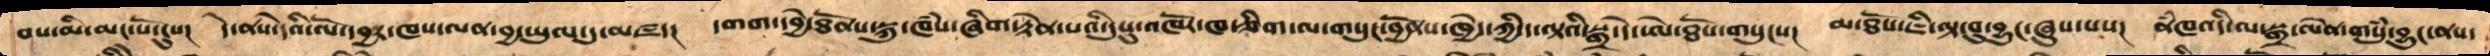བས་མི་མང་པོས་ངུས།  དེ་ནས་དེའི་ལོ་དབྱར་ཁས་ལན་བྱ་ཡུལ་དུ་མཛད།  དགག་དབྱེ་ཐོནས་སྐུ་ཁཾས་ཞིག་རྟེན་པའི་དུསུ་འཁོར་ཁ་ཅིག་ལ་གསུང་བྱོནས་ཁྱེད་ཀྱི་ད་ལྟའི་སྒྲ་དེ་ཨེ་ཐོས་གསུངས།  མ་ཐོས་ཇི་ལྟ་བུ་བྱུང་ཞུས་པས།  ནཾཁའ་འདི་ལ་སྒྲ་ལེན་གསུཾ་བྱུང་ནས་
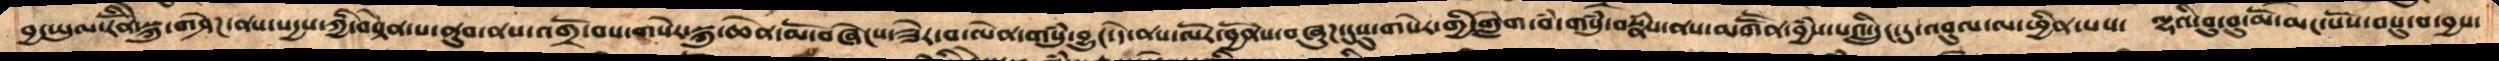བྱ་ཡུལ་རིོནེ་སྐུ་གཤེཌ་ནས་སདྱས་ཀྱི་བསྟེན་པ་ནུབ་ནས་འགྲོ་བས་གསེར་སྐུ་ཆེན་མོ་བཞེངས་ཟེར་བ་ལེན་གསུཾ་བྱུང་དེ་ནས་ལོར་བྱོནས་བཞུཌ་དུསུ་གསེར་གྱི་གླེག་བཾ་གསུཾ་བསྣཾས་ནས་མགོཽ་བྱཾས་པའི་དྲུང་དུ་འབུལ་ལ་ཕྱིན་པས།  ལྷའི་བུ་བུ་མོ་མང་པོས་བསུ་བ་བྱས་
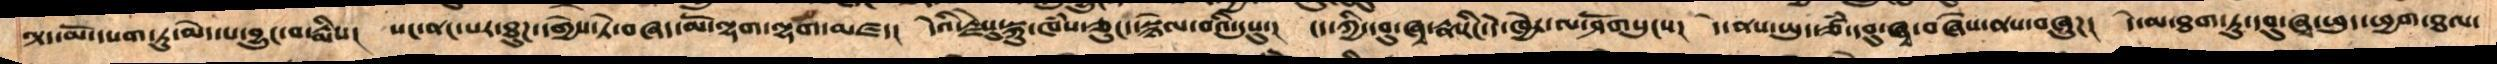ལྟད་མོ་དཔག་ཏུ་མེད་པ་བྱུང་བ་རྨིས།   སང་ནང་པར་ཐུཌ་དགྱེས་ཏེ་བཞད་མོ་ལྷག་ལྷག་མཛད།    དེའི་རྗེསུ་སྐུ་ཁྃས་ཅུང་སྙེལ་བའི་དུསུ།  ངད་ཀྱི་དབུ་ཞྭ་སྣ་རིང་དེ་ཁྱེར་ལ་ཤོགསུངས། དེ་ནས་ཡུད་ཙྃ་དབུ་ཞྭ་བཞེས་ནསབཞུཌ། དེ་མ་ཐག་ཏུ་དབུ་ཞྭ་ཕུད་ཕྱག་ཐལ་
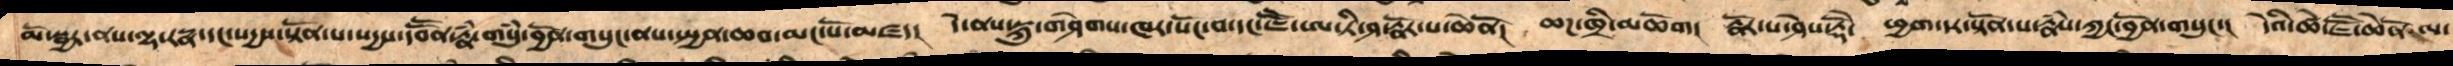མོ་སྦྱར་ནས་ལྷ་རསྣ་དང་སདྱས་སྟོན་པ་སདྱད་དབོཽན་རྣྃ་གསུྃ་བྱོན་གསུང་ནས་སྤྱན་ཆབ་མང་པོ་མཛད། དེ་ནས་སྐུ་གཤེགས་ཁར་སོང་བ་དང་ཇཽ་ཨ་ཏི་ཤ་རྣོར་པ་ཆེནོ། ཆཌ་ཁྲི་མཆོག།  རྣོར་པ་ཤེས་རྡོེ་  ཕྱག་དར་སྟོན་པ་རྣྃས་ཀྱང་བྱོན་གསུང་། དེའི་ཚེ་ཇཽ་ཆེནོ་ལ་
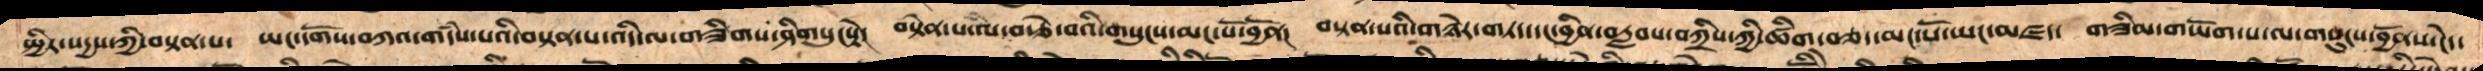སྤྱིར་སདྱས་ཀྱི་བསྟན་པ་  ཡང་དགོས་བཀའ་གདྃས་པའི་བསྟན་པ་འདི་ལ་གཟིགས་ཤིག་གསུངསྟེ།   བསྟེན་པ་ལ་ཐུགས་བརྩེ་བའི་གསུངས་མང་པོ་བྱོན། བསྟན་པའི་གཉེར་གཏད་དང་བྱིན་བརླབས་བཀྲིས་ཀྱི་ཚིག་བཅད་མང་པོ་ཡང་མཛད།  གཟིམས་གཡོག་པ་ལ་གསུངས་བྱོནས་ངེད་
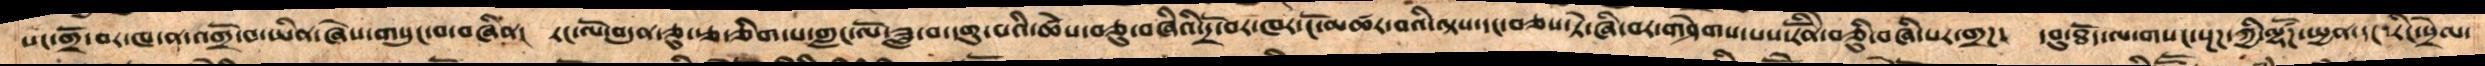སང་གྲོ་བར་ཁ་ན་འགྲོ་བ་ཡིན་ཞེས་གསུང་བ་བཞིན།  རང་ལོ་བདུན་ཅུ་རྩ་ཅིག་པ་གླང་ལོ་ཟླ་བ་དགུ་པའི་ཚེས་བཅུ་བཞིའི་དྲོ་བར་ཁར་ངོ་མཚར་བའི་ལྟས་དང་བཅས་ཏེ་ཞི་བར་གཤེགས་པས་རིནོེ་བཅིུ་བཞི་པར་གྲཌ་  དབུ་ཐོད་ལ་གསང་སྔཌ་ཀྱི་ལྷཚོཌ་སྤྱན་དང་རིང་སྲེལ་
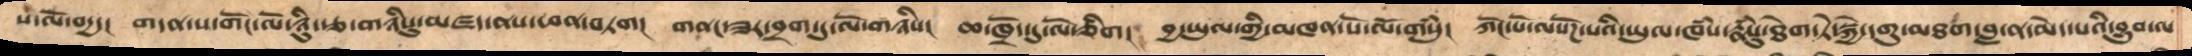སཾ་ལོ་བདྱདད།   གདན་ས་གོང་ལོ་ཉིུ་རྩ་གཉིསུ་མཛད་ནས་ཕན་བཏག།   གནང་ཟར་བྲག་དུ་ལོ་གཉིས།   ཆ་ཁྲོད་དུ་ལོ་ཅིག།  བྱ་ཡུལ་གྱི་མཁན་པོ་ལོ་གསུཾ།  ཀོང་པོ་ལསོཌ་པའི་ཡུལ་ཁཾས་རྣཾསུ་ཐེག་ཏེ་སྐྱེ་དགུ་མཐག་བླ་ན་མེད་པའི་བྱུབ་ལ
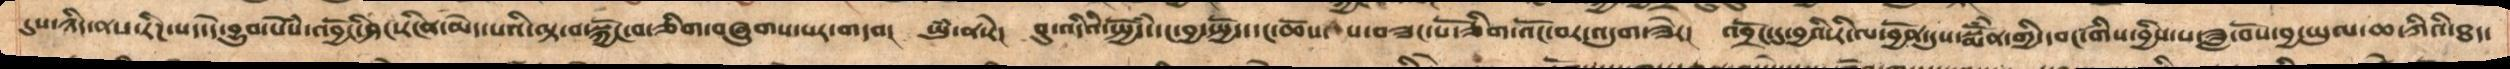དུས་ཉིད་ནས་རིཌ་སད་དེ་བྱུབ་སེཾས་འབྱོང་ཤིང་རངིན་མེད་པའི་ལྟ་བ་སྐྱོང་བ་ཅིག་བཞུགས་པར་གདབ།  ཡུཾ་ན་རེ།  བུ་འདིའི་སྤྱོདཾ་དང་བྱ་སྤྱོད་དང་ཆོས་པ་བཟང་པོ་ཅིག་འོང་བར་འདུག་ཟེར།  འབྲོང་དུ་བྱའི་རི་ལ་བྱོན་དུས་སྨོཾན་གྱི་དབང་གིས་བྱིས་པ་ཟླ་བོས་བྱ་ཡུལ་ཆ་ཀིའི་ཐད་
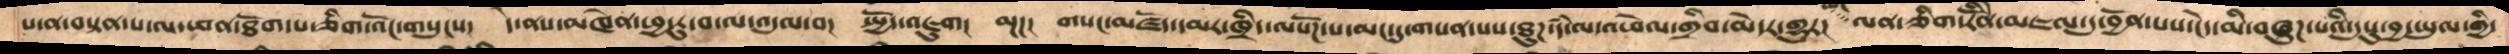ས་ན་བསྟན་པ་ལ་ཕན་ཐོག་པ་ཅིག་འོང་གསུངས།    དེ་ནས་མཁེན་ཕྱ་རུ་བ་ལ་འདུལ་བ།   སྤྱོད་འཇུག།  མྔཌ།  གསང་མཛོད་དམར་ཁྲིད་ལསོཌ་པ་མང་དུ་གསན་པས་ཐུཌ་དཾ་ལ་འཕེལ་གྲིབ་མེདར་གྱུར།  ལན་ཅིག་རིནོེ་མཇལ་དུ་བྱོན་པས་ངེད་མི་བཞུཌ་པའི་དུསུ་བྱ་ཡུལ་གྱི་
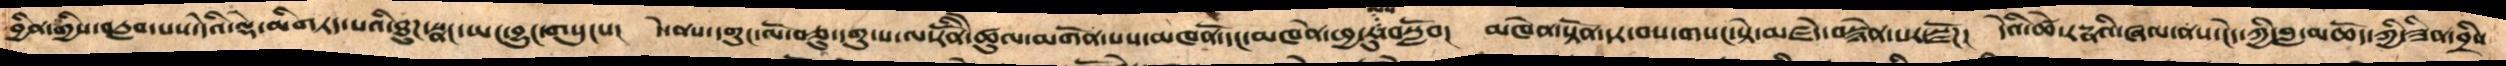བྱིན་གྱིས་བརླབ་པས་དེའི་ལྡེ་མིག་གཏད་པའི་ཐུཌ་སྣང་ཡང་བྱུང་གསུངས།  དེ་ནས་དགུང་ལོ་བཅུ་དགུ་པ་ལ་རིནོེ་ཚུལ་མགོན་པས་མཁནོ་དང་མཁེན་ཕྱ་རུ་ལས་བསློབ།  མཁེན་སྟོན་དར་བས་གསང་སྟེ་མཛེད་བསྙེན་པར་སྫོཌ།   དེའི་ཚེ་རཏྣའི་ཞལ་ནས་ངེད་ཀྱི་བླ་མཆོད་ཀྱི་ཟིན་བྲིས
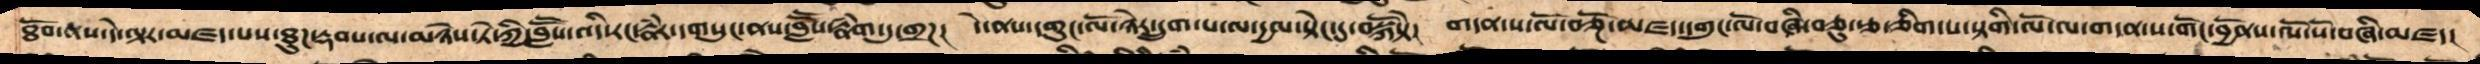ཐོབ་ནས་དེ་ལྟར་མཛད་པས་ཐུཌ་རྡབས་ལ་མཉེས་ཏེ་ཀྱི་བླཽས་འདི་རང་རྣཾར་གསུང་ནས་བླཽས་རྣཾག་དུ་གྲཌ།   དེ་ནས་དགུང་ལོ་ཉེར་དྲུག་པ་ལ་དྱལ་སྟེང་དུ་བསྐོསྟེ།   གདན་ས་ལོ་བཅྔོ་ཛད་དགུང་ལོ་བཞི་བཅུ་རྩ་ཅིག་ས་སྟགི་ལོ་ལ་གདན་ས་གོང་བྱོནས་ལོ་སོ་བཞི་མཛད།
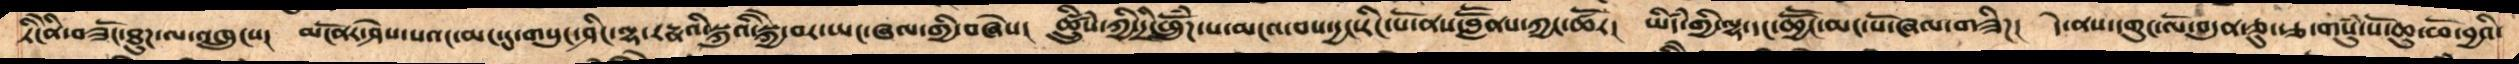ཏིངེནི་བཟོང་ཐུཌ་ལ་འཁྲུངས།  མངོནར་ཤེས་པའང་མང་དུ་གསུང་ཤིང་ལྷ་རཏྣའི་སྐུའི་སྐྱེ་བར་ཡང་ཞལ་གྱི་བཞེས།  ཚྲིུསཾ་ཀྱི་དྲི་ཕྲོུཾཌ་པ་མངའ་བས་དྱང་རིང་པོ་ནས་བླཽནས་ཀྱང་ཚོར།  ཡི་དཾ་གྱི་ལྷ་དང་ཆྱཽང་མང་པོ་ཞལ་གཟིཌ།  དེ་ནས་དགུང་ལོ་བདུན་ཅུ་རྩ་གསུཾ་པོ་ཆུ་ཕོ་བྱའི་
